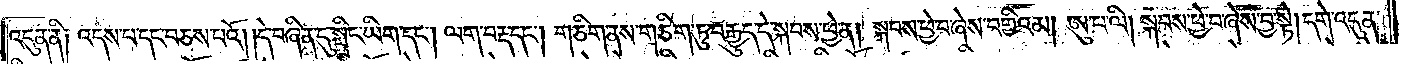འདུན་ནི། འདས་པ་དང་བཅས་པའོ། །དེ་བཞིན་དུ་སྤྲིང་ཡིག་དང༌། ལག་བརྡ་དང༌། གཅིག་ནས་གཅིག་ཏུ་བརྒྱུད་དེ་སྐབས་ཕྱེ་ན། སྐབས་ཕྱེ་བ་ཞེས་བགྱིའམ། ཨུ་པ་ལི། སྐབས་ཕྱེ་བ་ཞེས་བྱ་སྟེ། དགེ་འདུན་
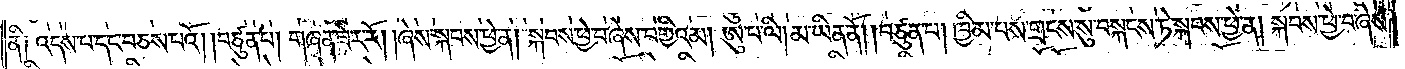ནི༑ འདས་པ་དང་བཅས་པའོ། །བཙུན་པ། གཞན་ཟེར་རོ། །ཞེས་སྐབས་ཕྱེ་ན། སྐབས་ཕྱེ་བ་ཞེས་བགྱིའམ། ཨུ་པ་ལི། མ་ཡིན་ནོ། །བཙུན་པ། ཁྱིམ་པས་གྲངས་སུ་བསྐངས་ཏེ་སྐབས་ཕྱེ་ན། སྐབས་ཕྱེ་བ་ཞེས་
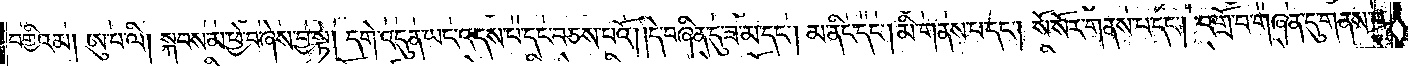བགྱིའམ། ཨུ་པ་ལི། སྐབས་མ་ཕྱེ་བ་ཞེས་བྱ་སྟེ། དགེ་འདུན་ཡང་འདས་པ་དང་བཅས་པའོ། །དེ་བཞིན་དུ་ཟ་མ་དང༌། མ་ནིང་དང༌། མི་གནས་པ་དང༌། སོ་སོར་གནས་པ་དང༌། འགྲོ་བ་གཞན་དུ་གནས་པ་
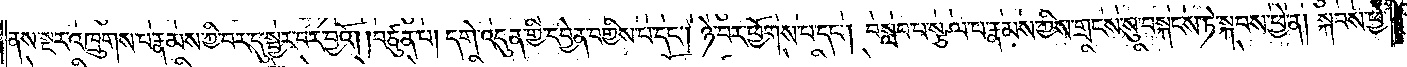ནས་སྔར་འཁྲུགས་པ་རྣམས་ཀྱི་བར་དུ་སྦྱར་བར་བྱའོ། །བཙུན་པ། དགེ་འདུན་གྱི་དབྱེན་བགྱིས་པ་དང༌། ཉེ་བར་ཕྱོགས་པ་དང༌། བསླབ་པ་སྩལ་པ་རྣམས་ཀྱིས་གྲངས་སུ་བསྐངས་ཏེ་སྐབས་ཕྱེ་ན། སྐབས་ཕྱེ་
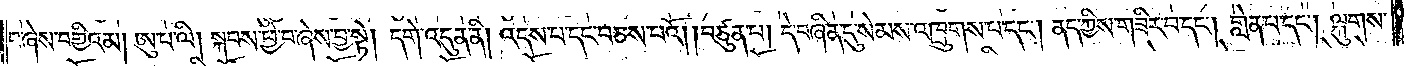བ་ཞེས་བགྱིའམ། ཨུ་པ་ལི། སྐབས་ཕྱེ་བ་ཞེས་བྱ་སྟེ། དགེ་འདུན་ནི། འདས་པ་དང་བཅས་པའོ། །བཙུན་པ། དེ་བཞིན་དུ་སེམས་འཁྲུགས་པ་དང༌། ནད་ཀྱིས་གཟིར་བ་དང༌། གླེན་པ་དང༌། ལྐུགས་
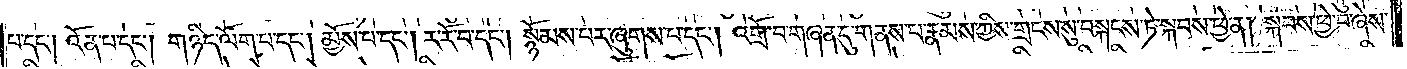པ་དང༌། འོན་པ་དང༌། གཉིད་ལོག་པ་དང༌། མྱོས་པ་དང༌། ར་རོ་བ་དང༌། སྙོམས་པར་ཞུགས་པ་དང༌། འགྲོ་བ་གཞན་དུ་གནས་པ་རྣམས་ཀྱིས་གྲངས་སུ་བསྐངས་ཏེ་སྐབས་ཕྱེ་ན། སྐབས་ཕྱེ་བ་ཞེས་
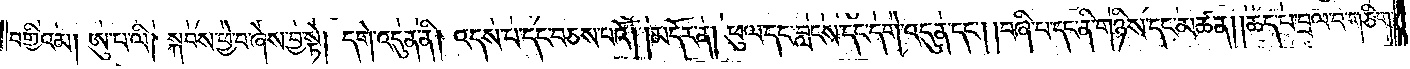བགྱིའམ། ཨུ་པ་ལི། སྐབས་ཕྱེ་བ་ཞེས་བྱ་སྟེ། དགེ་འདུན་ནི། འདས་པ་དང་བཅས་པའོ། །མདོར་ན། ཕུལ་དང་བླངས་དང་དགེ་འདུན་དང༌། །བཞི་པ་དང་ནི་གཉིས་དང་མཚན། །ཆད་པ་བྲལ་བ་གཅིག་
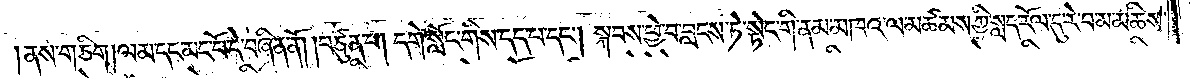།ནས་གཅིག །ལམ་དང་མང་པོ་དེ་བཞིན་ནོ། །བཙུན་པ། དགེ་སློང་གིས་དད་པ་དང༌། སྐབས་ཕྱེ་བ་བླངས་ཏེ་སྟེང་གི་ནམ་མཁའ་ལ་མཚམས་ཀྱི་སླད་རོལ་དུ་རེ་བ་མ་མཆིས་
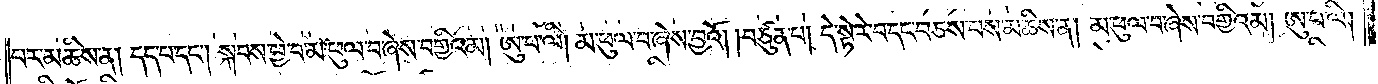པར་མཆིས་ན། དད་པ་དང༌། སྐབས་ཕྱེ་བ་མ་ཕུལ་བ་ཞེས་བགྱིའམ། ཨུ་པ་ལི། མ་ཕུལ་བ་ཞེས་བྱའོ། །བཙུན་པ། དེ་སྟེ་རེ་བ་དང་བཅས་པས་མཆིས་ན། མ་ཕུལ་བ་ཞེས་བགྱིའམ། ཨུ་པ་ལི།
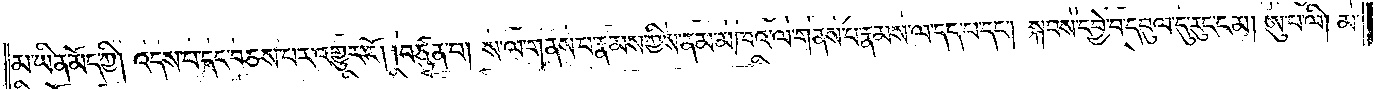མ་ཡིན་མོད་ཀྱི། འདས་པ་དང་བཅས་པར་འགྱུར་རོ། །བཙུན་པ། ས་ལ་གནས་པ་རྣམས་ཀྱིས་ནམ་མཁའ་ལ་གནས་པ་རྣམས་ལ་དད་པ་དང༌། སྐབས་དབྱེ་བ་དབུལ་དུ་རུང་ངམ། ཨུ་པ་ལི། མ་
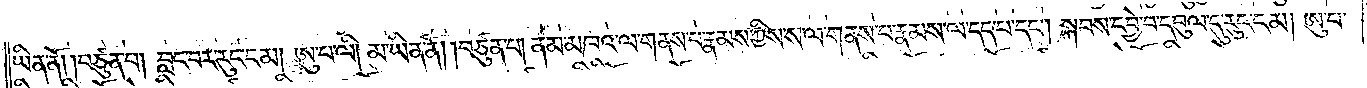ཡིན་ནོ། །བཙུན་པ། བླང་བར་རུང་ངམ། ཨུ་པ་ལི། མ་ཡིན་ནོ། །བཙུན་པ། ནམ་མཁའ་ལ་གནས་པ་རྣམས་ཀྱིས་ས་ལ་གནས་པ་རྣམས་ལ་དད་པ་དང༌། སྐབས་དབྱེ་བ་དབུལ་དུ་རུང་ངམ། ཨུ་པ་
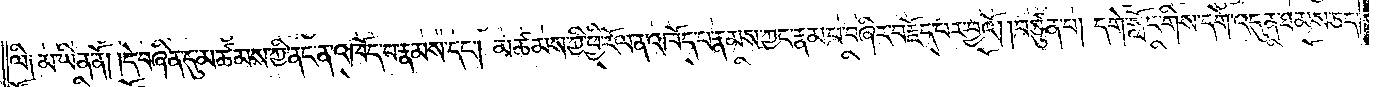ལི༑ མ་ཡིན་ནོ། །དེ་བཞིན་དུ་མཚམས་ཀྱི་ནང་ན་འཁོད་པ་རྣམས་དང༌། མཚམས་ཀྱི་ཕྱི་རོལ་ན་འཁོད་པ་རྣམས་ཀྱང་རྣམ་པ་བཞིར་བརྗོད་པར་བྱའོ། །བཙུན་པ། དགེ་སློང་གིས་དགེ་འདུ་ཐམས་ཅད་
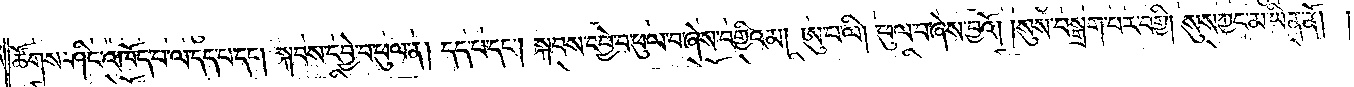ཚོགས་ཤིང་འཁོད་པ་ལ་དད་པ་དང༌། སྐབས་དབྱེ་བ་ཕུལ་ན། དད་པ་དང༌། སྐབས་དབྱེ་བ་ཕུལ་བ་ཞེས་བགྱིའམ། ཨུ་པ་ལི། ཕུལ་བ་ཞེས་བྱའོ། །སུས་བསྒྲག་པར་བགྱི། སུས་ཀྱང་མ་ཡིན་ནོ། །
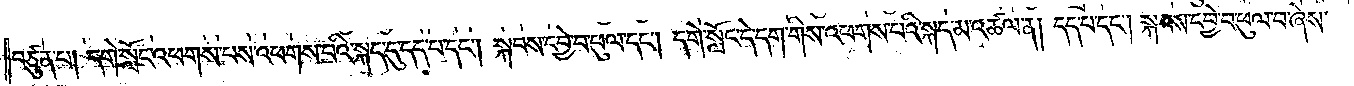བཙུན་པ། དགེ་སློང་འཕགས་པས་འཕགས་པའི་སྐད་དུ་དད་པ་དང༌། སྐབས་དབྱེ་བ་ཕུལ་དང༌། དགེ་སློང་དེ་དག་གིས་འཕགས་པའི་སྐད་མ་འཚལ་ན། དད་པ་དང༌། སྐབས་དབྱེ་བ་ཕུལ་བ་ཞེས་
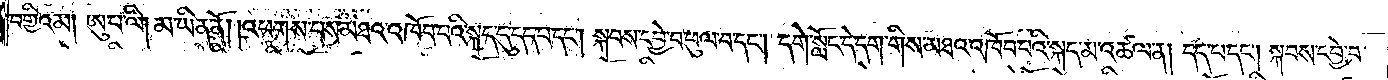བགྱིའམ། ཨུ་པ་ལི། མ་ཡིན་ནོ། །འཕགས་པས་མཐའ་འཁོབ་པའི་སྐད་དུ་དད་པ་དང༌། སྐབས་དབྱེ་བ་ཕུལ་བ་དང༌། དགེ་སློང་དེ་དག་གིས་མཐའ་འཁོབ་པའི་སྐད་མ་འཚལ་ན། དད་པ་དང༌། སྐབས་དབྱེ་བ་
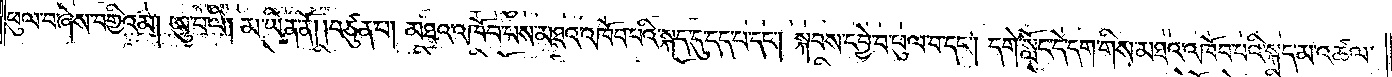ཕུལ་བ་ཞེས་བགྱིའམ། ཨུ་པ་ལི། མ་ཡིན་ནོ། །བཙུན་པ། མཐའ་འཁོབ་པས་མཐའ་འཁོབ་པའི་སྐད་དུ་དད་པ་དང༌། སྐབས་དབྱེ་བ་ཕུལ་བ་དང༌། དགེ་སློང་དེ་དག་གིས་མཐའ་འཁོབ་པའི་སྐད་མ་འཚལ་
